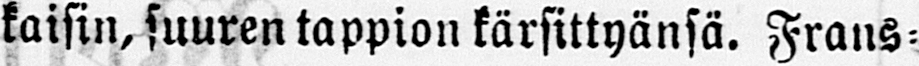kaisin, suuren tappion kärsittyänsä. Frans-
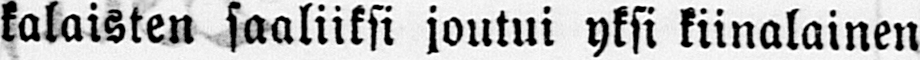kalaisten saaliiksi joutui yksi kiinalainen
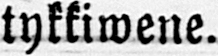tykkiwene.
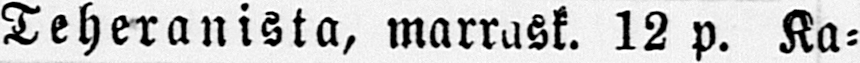Teheranista, marrask. 12 p. Ka-
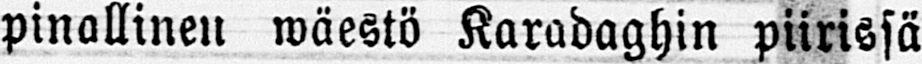pinallinen wäestö Karadaghin piirissä
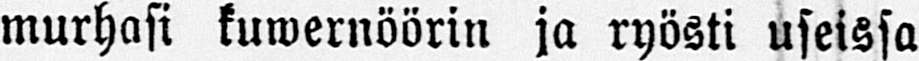murhasi kuwernöörin ja ryösti useissa
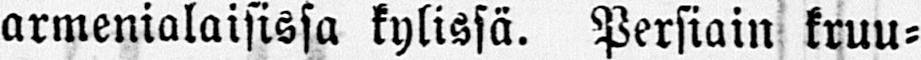armenialaisissa kylissä. Persiain kruu-
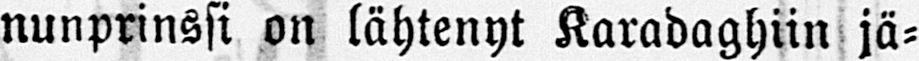nunprinssi on lähtenyt Karadaghiin jä-
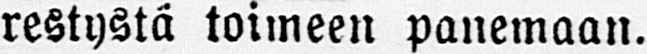restystä toimeen panemaan.
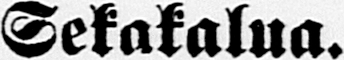Sekakalua.
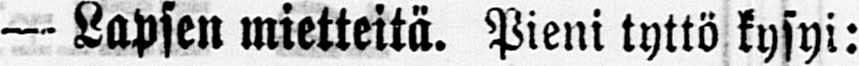— Lapsen mietteitä. Pieni tyttö kysyi:
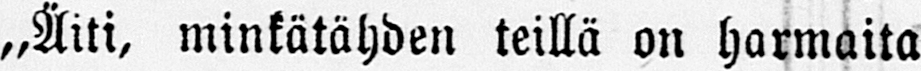„Äiti, minkätähden teillä on harmaita
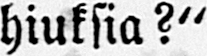hiuksia?"
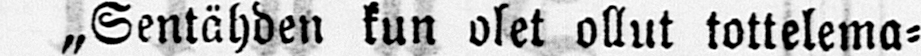„Sentähden kun olet ollut tottelema-
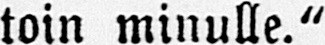toin minulle."
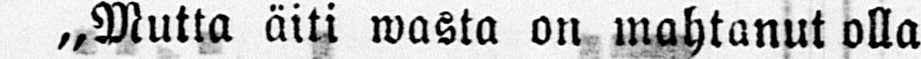„Mutta äiti wasta on mahtanut olla
